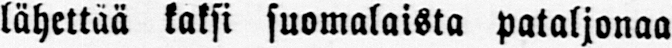lähettää kaksi suomalaista pataljonaa
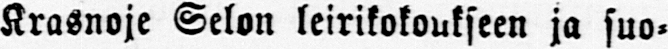Krasnoje Selon leirikokoukseen ja suo-
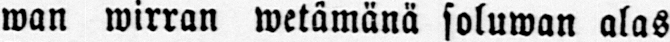wan wirran wetämänä soluwan alas
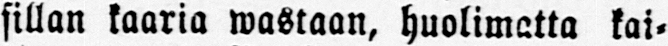sillan kaaria wastaan, huolimatta kai-
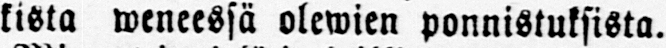kista weneessä olewien ponnistuksista.
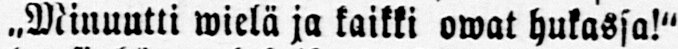˶Minuutti wielä ja kaikki owat hukassa!"
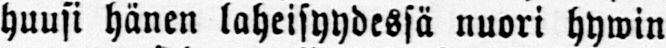huusi hänen läheisyydessä nuori hywin
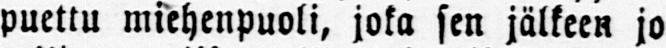puettu miehenpuoli, joka sen jälkeen jo
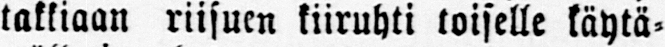takkiaan riisuen kiiruhti toiselle käytä-
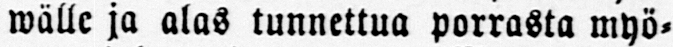wälle ja alas tunnettua porrasta myö-
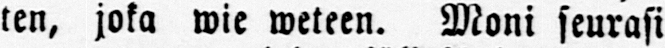ten, joka wie weteen. Moni seurasi
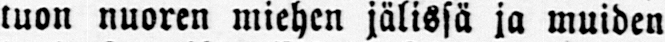tuon nuoren miehen jälissä ja muiden
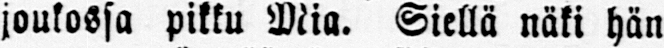joukossa pikku Mia. Siellä näki hän
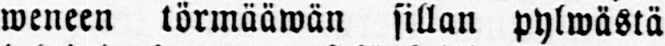weneen törmääwän sillan pylwästä
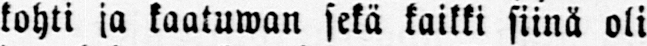kohti ja kaatuwan sekä kaikki siinä oli
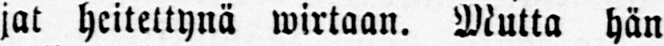jat heitettynä wirtaan. Mutta hän
